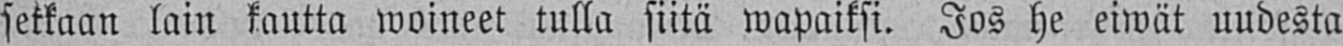setkaan lain kautta woineet tulla siitä wapaiksi. Jos he eiwät uudesta
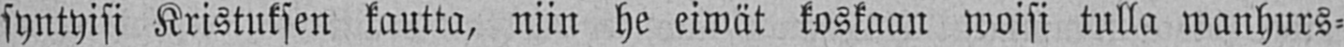syntyisi Kristuksen kautta, niin he eiwät koskaan woisi tulla wanhurs-
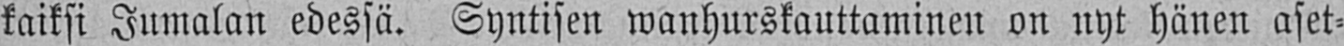kaiksi Jumalan edessä. Syntisen wanhurskauttaminen on nyt hänen aset-
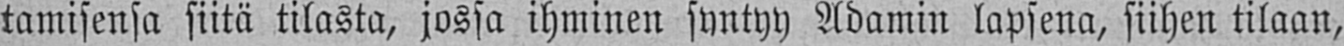tamisensa siitä tilasta, jossa ihminen syntyy Adamin lapsena, siihen tilaan,
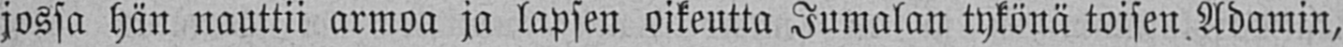jossa hän nauttii armoa ja lapsen oikeutta Jumalan tykönä toisen Adamin,
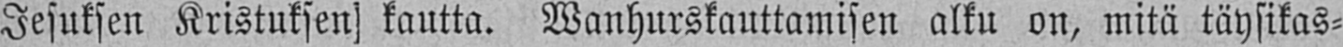Jesuksen Kristuksen kautta. Wanhurskauttamisen alku on, mitä täysikas-
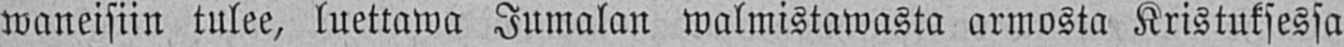waneisiin tulee, luettawa Jumalan walmistawasta armosta Kristuksessa
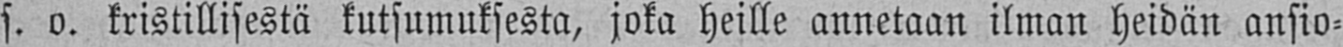s. o. kristillisestä kutsumuksesta, joka heille annetaan ilman heidän ansio-
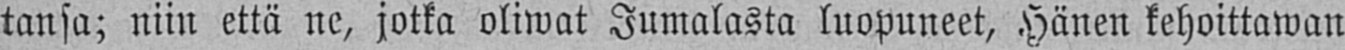tansa; niin että ne, jotka oliwat Jumalasta luopuneet. Hänen kehoittawan
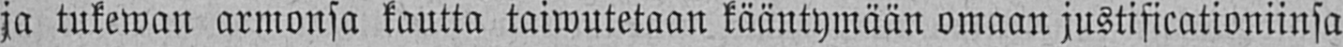ja tukewan armonsa kautta taiwutetaan kääntymään omaan justificationiinsa
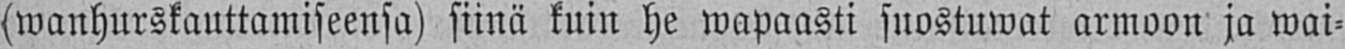(wanhurskauttamiseensa) siinä kuin he wapaasti suostuwat armoon ja wai-
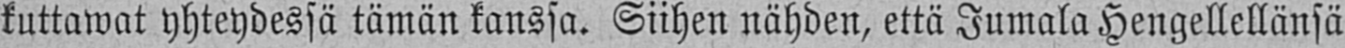kuttawat yhteydessä tämän kanssa. Siihen nähden, että Jumala Hengellellänsä
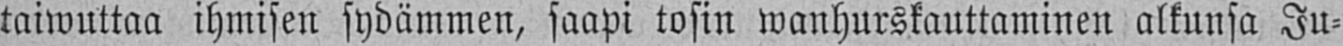taiwuttaa ihmisen sydämmen, saapi tosin wanhurskauttaminen alkunsa Ju-
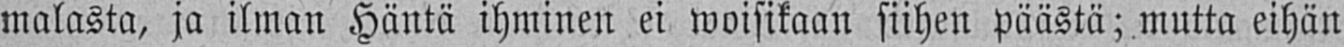malasta, ja ilman Häntä ihminen ei woisikaan siihen päästä; mutta eihän
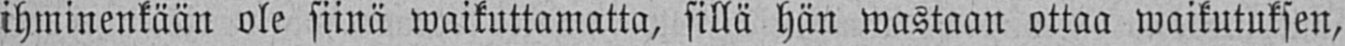ihminenkään ole siinä waikuttamatta, sillä hän wastaan ottaa waikutuksen,
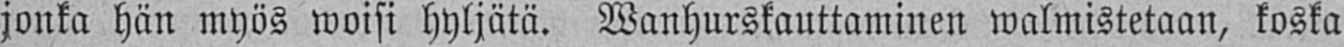jonka hän myös woisi hyljätä. Wanhurskauttaminen walmistetaan, koska
